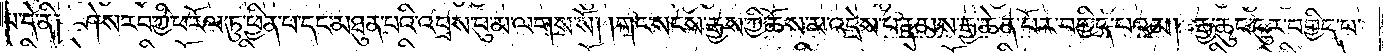པ་དེ་ནི༑ ཤེས་རབ་ཀྱི་ཕ་རོལ་ཏུ་ཕྱིན་པ་དང་མཐུན་པའི་འབྲས་བུ་མ་ལགས་སོ། །གང་སངས་རྒྱས་ཀྱི་ཆོས་མ་འདྲེས་པ་རྣམས་རྒྱ་ཆེན་པོར་བགྱིད་པའམ། རྒྱ་ཆུང་ངུར་བགྱིད་པ་
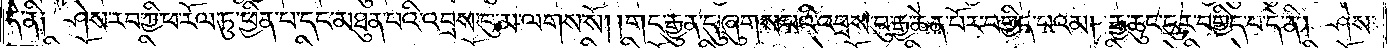དེ་ནི༑ ཤེས་རབ་ཀྱི་ཕ་རོལ་ཏུ་ཕྱིན་པ་དང་མཐུན་པའི་འབྲས་བུ་མ་ལགས་སོ། །གང་རྒྱུན་དུ་ཞུགས་པའི་འབྲས་བུ་རྒྱ་ཆེན་པོར་བགྱིད་པའམ། རྒྱ་ཆུང་ངུར་བགྱིད་པ་དེ་ནི། ཤེས་
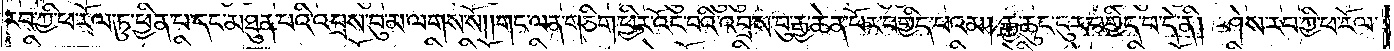རབ་ཀྱི་ཕ་རོལ་ཏུ་ཕྱིན་པ་དང་མཐུན་པའི་འབྲས་བུ་མ་ལགས་སོ། །གང་ལན་གཅིག་ཕྱིར་འོང་བའི་འབྲས་བུ་རྒྱ་ཆེན་པོར་བགྱིད་པའམ། རྒྱ་ཆུང་ངུར་བགྱིད་པ་དེ་ནི། ཤེས་རབ་ཀྱི་ཕ་རོལ་
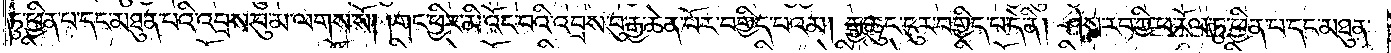ཏུ་ཕྱིན་པ་དང་མཐུན་པའི་འབྲས་བུ་མ་ལགས་སོ། །གང་ཕྱིར་མི་འོང་བའི་འབྲས་བུ་རྒྱ་ཆེན་པོར་བགྱིད་པའམ། རྒྱ་ཆུང་ངུར་བགྱིད་པ་དེ་ནི། ཤེས་རབ་ཀྱི་ཕ་རོལ་ཏུ་ཕྱིན་པ་དང་མཐུན་
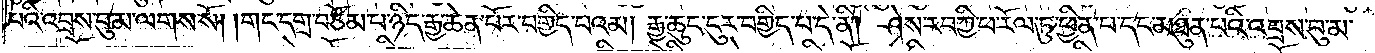པའི་འབྲས་བུ་མ་ལགས་སོ། །གང་དགྲ་བཅོམ་པ་ཉིད་རྒྱ་ཆེན་པོར་བགྱིད་པའམ། རྒྱ་ཆུང་ངུར་བགྱིད་པ་དེ་ནི། ཤེས་རབ་ཀྱི་ཕ་རོལ་ཏུ་ཕྱིན་པ་དང་མཐུན་པའི་འབྲས་བུ་མ་
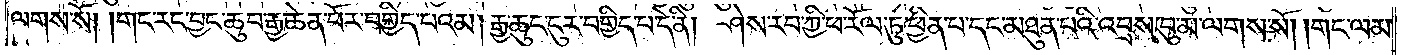ལགས་སོ། །གང་རང་བྱང་ཆུབ་རྒྱ་ཆེན་པོར་བགྱིད་པའམ། རྒྱ་ཆུང་ངུར་བགྱིད་པ་དེ་ནི། ཤེས་རབ་ཀྱི་ཕ་རོལ་ཏུ་ཕྱིན་པ་དང་མཐུན་པའི་འབྲས་བུ་མ་ལགས་སོ། །གང་ལམ་
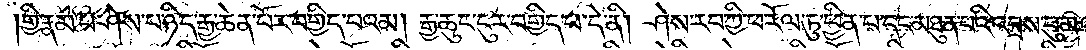གྱི་རྣམ་པ་ཤེས་པ་ཉིད་རྒྱ་ཆེན་པོར་བགྱིད་པའམ། རྒྱ་ཆུང་ངུར་བགྱིད་པ་དེ་ནི། ཤེས་རབ་ཀྱི་ཕ་རོལ་ཏུ་ཕྱིན་པ་དང་མཐུན་པའི་འབྲས་བུ་མ་ལགས་
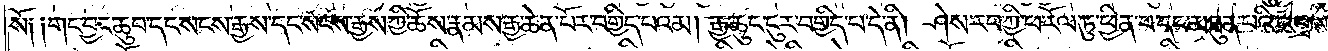སོ༑ ༑གང་བྱང་ཆུབ་དང་སངས་རྒྱས་དང་སངས་རྒྱས་ཀྱི་ཆོས་རྣམས་རྒྱ་ཆེན་པོར་བགྱིད་པའམ། རྒྱ་ཆུང་ངུར་བགྱིད་པ་དེ་ནི། ཤེས་རབ་ཀྱི་ཕ་རོལ་ཏུ་ཕྱིན་པ་དང་མཐུན་པའི་འབྲས་
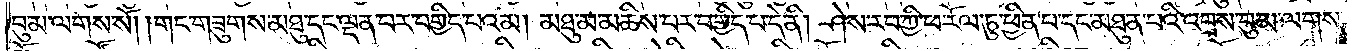བུ་མ་ལགས་སོ། །གང་གཟུགས་མཐུ་དང་ལྡན་པར་བགྱིད་པའམ། མཐུ་མ་མཆིས་བགྱིད་པ་དེ་ནི། ཤེས་རབ་ཀྱི་ཕ་རོལ་ཏུ་ཕྱིན་པ་དང་མཐུན་པའི་འབྲས་བུ་མ་ལགས་
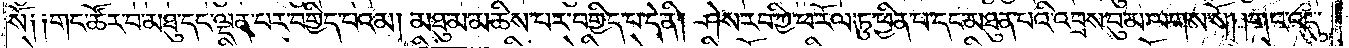སོ༑ ༑གང་ཚོར་བ་མཐུ་དང་ལྡན་པར་བགྱིད་པའམ། མཐུ་མ་མཆིས་པར་བགྱིད་པ་དེ་ནི། ཤེས་རབ་ཀྱི་ཕ་རོལ་ཏུ་ཕྱིན་པ་དང་མཐུན་པའི་འབྲས་བུ་མ་ལགས་སོ། །གང་འདུ་
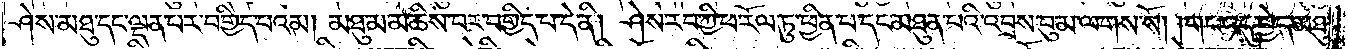ཤེས་མཐུ་དང་ལྡན་པར་བགྱིད་པའམ། མཐུ་མ་མཆིས་པར་བགྱིད་པ་དེ་ནི། ཤེས་རབ་ཀྱི་ཕ་རོལ་ཏུ་ཕྱིན་པ་དང་མཐུན་པའི་འབྲས་བུ་མ་ལགས་སོ། །གང་འདུ་བྱེད་མཐུ་
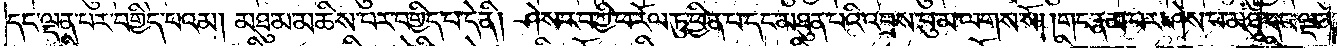དང་ལྡན་པར་བགྱིད་པའམ། མཐུ་མ་མཆིས་པར་བགྱིད་པ་དེ་ནི། ཤེས་རབ་ཀྱི་ཕ་རོལ་ཏུ་ཕྱིན་པ་དང་མཐུན་པའི་འབྲས་བུ་མ་ལགས་སོ། །གང་རྣམ་པར་ཤེས་པ་མཐུ་དང་ལྡན་
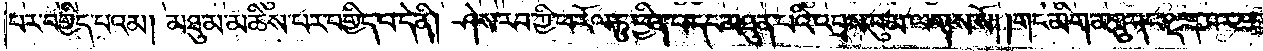པར་བགྱིད་པའམ། མཐུ་མ་མཆིས་པར་བགྱིད་པ་དེ་ནི། ཤེས་རབ་ཀྱི་ཕ་རོལ་ཏུ་ཕྱིན་པ་དང་མཐུན་པའི་འབྲས་བུ་མ་ལགས་སོ། །གང་མིག་མཐུ་དང་ལྡན་པར་བགྱིད་པའམ།
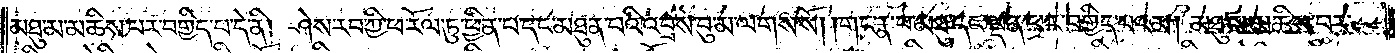མཐུ་མ་མཆིས་པར་བགྱིད་པ་དེ་ནི། ཤེས་རབ་ཀྱི་ཕ་རོལ་ཏུ་ཕྱིན་པ་དང་མཐུན་པའི་འབྲས་བུ་མ་ལགས་སོ། །གང་རྣ་བ་མཐུ་དང་ལྡན་པར་བགྱིད་པའམ། མཐུ་མ་མཆིས་པར་
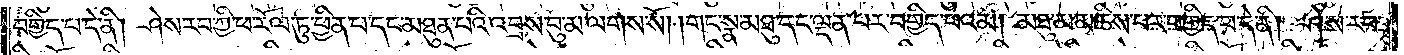བགྱིད་པ་དེ་ནི། ཤེས་རབ་ཀྱི་ཕ་རོལ་ཏུ་ཕྱིན་པ་དང་མཐུན་པའི་འབྲས་བུ་མ་ལགས་སོ། །གང་སྣ་མཐུ་དང་ལྡན་པར་བགྱིད་པའམ། མཐུ་མ་མཆིས་པར་བགྱིད་པ་དེ་ནི། ཤེས་རབ་
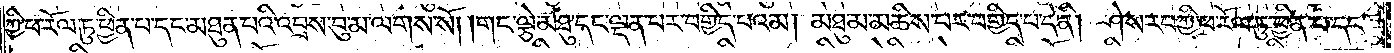ཀྱི་ཕ་རོལ་ཏུ་ཕྱིན་པ་དང་མཐུན་པའི་འབྲས་བུ་མ་ལགས་སོ། །གང་ལྕེ་མཐུ་དང་ལྡན་པར་བགྱིད་པའམ། མཐུ་མ་མཆིས་པར་བགྱིད་པ་དེ་ནི། ཤེས་རབ་ཀྱི་ཕ་རོལ་ཏུ་ཕྱིན་པ་དང་
